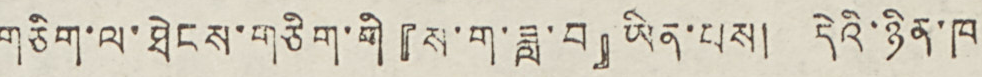གཅིག་ལ་ཐེངས་གཅིག་གི『ས་ག་ཟླ་བ』ཡིན་པས། དེའི་ཉིན་ཁ
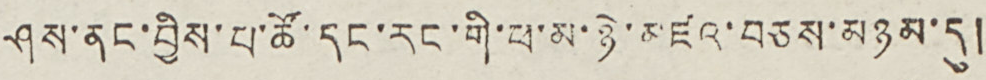ཤས་ནང་བྱིས་པ་ཚོ་དང་རང་གི་ཕ་མ་ཉེ་མཛའ་བཅས་མཉམ་དུ།
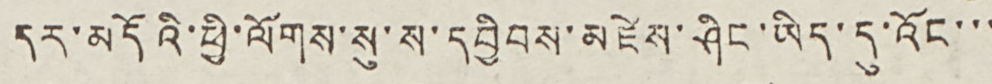དར་མདོའི་ཕྱི་ལོགས་སུ་ས་དབྱིབས་མཛེས་ཤིང་ཡིད་དུ་འོང་་་
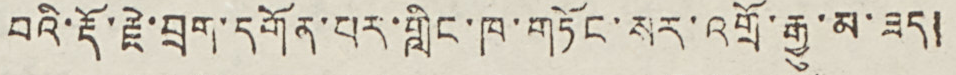བའི་རྡོ་རྗེ་བྲག་དགོན་པར་གླིང་ཁ་གཏོང་སར་འགྲོ་རྒྱུ་མ་ཟད།
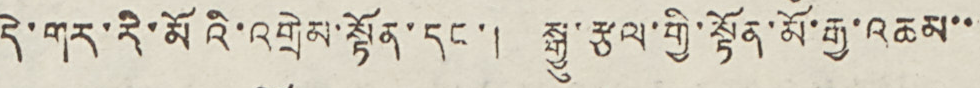དེ་གར་རི་མོའི་འགྲེམ་སྟོན་དང་། སྒྱུ་རྩལ་གྱི་སྟོན་མོ་རྒྱ་འཆམ་་
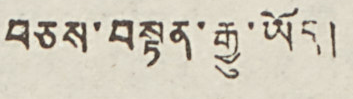བཅས་བསྟན་རྒྱུ་ཡོད།
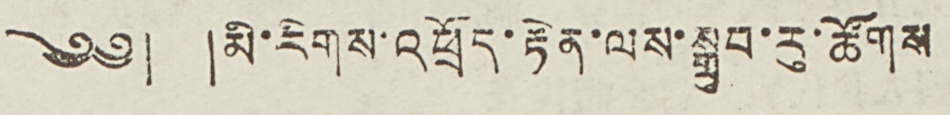༄༅། །མི་རིགས་འཕྲོད་རྟེན་ལས་སྒྲུབ་རུ་ཚོགས
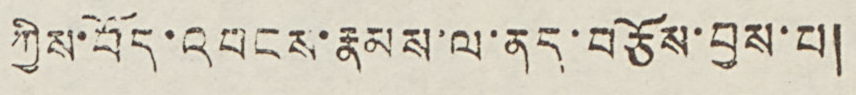ཀྱིས་བོད་འབངས་རྣམས་ལ་ནད་བཅོས་བྱས་པ།
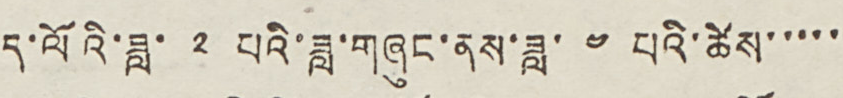ད་ལོའི་ཟླ་ ༢ པ་ཟླ་གཞུང་ནས་ཟླ་ ༤ པའི་ཚེས་་་་་
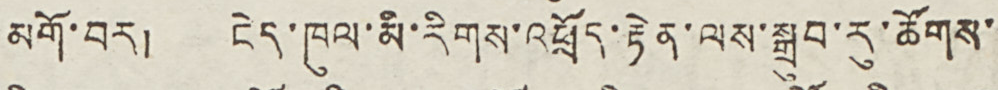མགོ་པར། ངེད་ཁུལ་མི་རིགས་འཕྲོད་རྟེན་ལས་སྒྲུབ་རུ་ཚོགས་
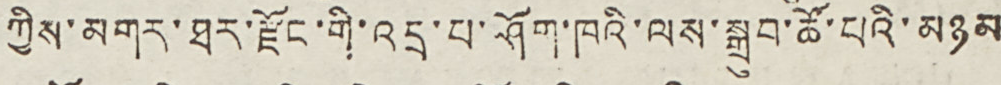ཀྱིས་མགར་ཐར་རྫོང་གི་འདྲ་པ་ཤོག་ཁའི་ལས་སྒྲུབ་ཚོ་པའི་མཉམ
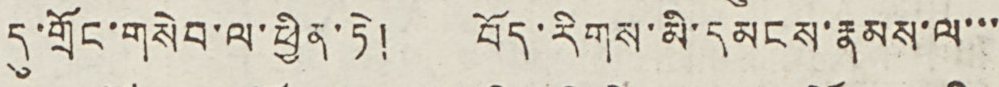དུ་གྲོང་གསེབ་ལ་ཕྱིན་ཏེ། བོད་རིགས་མི་དམངས་རྣམས་ལ་་་
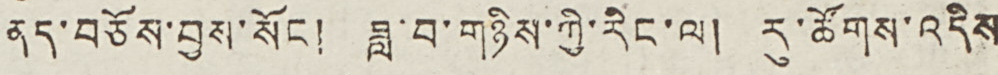ནད་བཅོས་བྱས་སོང ། ཟླ་བ་གཉིས་ཀྱི་རིང་ལ། རུ་ཚོགས་འདིས
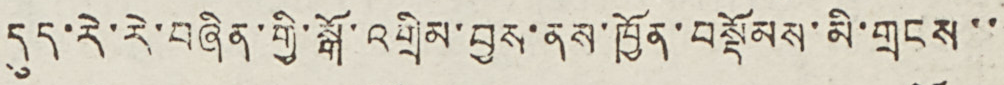དུད་རེ་རེ་བཞིན་གྱི་སྒོ་འགྲིམ་བྱས་ནས་ཁྱོན་བསྡོམས་མི་གྲངས་་
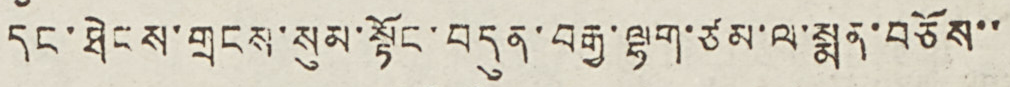དང་ཐེངས་གྲངས་སུམ་སྟོང་བདུན་བརྒྱ་ལྷག་ཙམ་ལ་སྨན་བཅོས་་
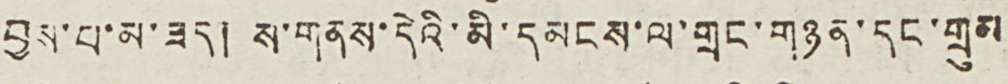བྱས་པ་མ་ཟད། ས་གནས་དེའི་མི་དམངས་ལ་གྲང་གཉན་དང་གྲུམ
